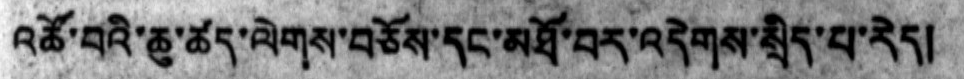འཚོ་བའི་ཆུ་ཚད་ལེགས་བཅོས་དང་མཐོ་བར་འདེགས་སྲིད་པ་རེད།
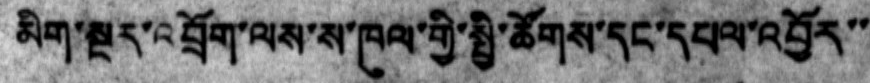མིག་སྔར་འབྲོག་ལས་ས་ཁུལ་གྱི་སྤྱི་ཚོགས་དང་དཔལ་འབྱོར་་
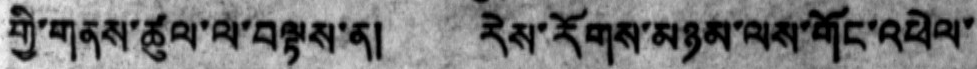གྱི་གནས་ཚུལ་ལ་བལྟས་ན།   རེས་རོགས་མཉམ་ལས་གོང་འཕེལ་
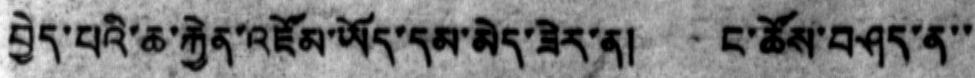བྱེད་པའི་ཆ་རྐྱེན་འཛོམ་ཡོད་དམ་མེད་ཟེར་ན། ང་ཚོས་བཤད་ན་་
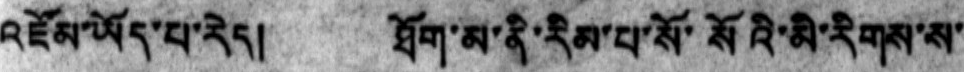འཛོམ་ཡོད་པ་རེད།   ཐོག་མ་ནི་རིམ་པ་སོ་སོའི་མི་རིགས་ས་
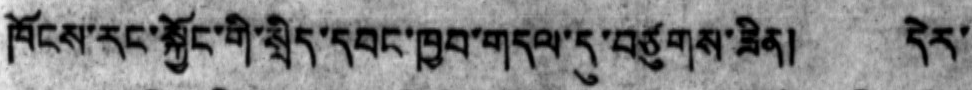ཁོངས་རང་སྐྱོང་གི་སྲིད་དབང་ཁྱབ་གདལ་དུ་བཙུགས་ཟིན།  དེར་
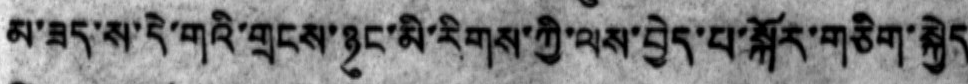མ་ཟད་ས་དེ་གའི་གྲངས་ཉུང་མི་རིགས་ཀྱི་ལས་བྱེད་པ་སྐོར་གཅིག་སྐྱེད
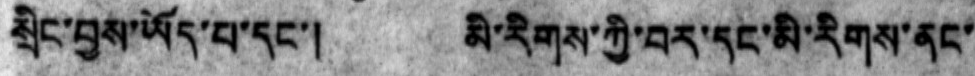སྲིང་བྱས་ཡོད་པ་དང་། མི་རིགས་ཀྱི་བར་དང་མི་རིགས་ནང་
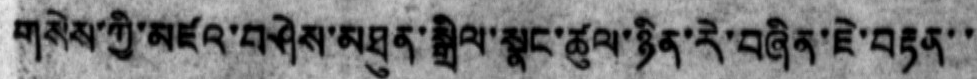གསེས་ཀྱི་མཛའ་བཤེས་མཐུན་སྒྲིལ་སྣང་ཚུལ་ཉིན་རེ་བཞིན་ཇེ་བརྟན་་
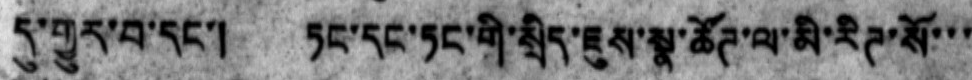དུ་གྱུར་བ་དང་། ཏང་དང་ཏང་གི་སྲིད་ཇུས་སྣ་ཚོཊ་ལ་མི་རིཊ་སོ་་་
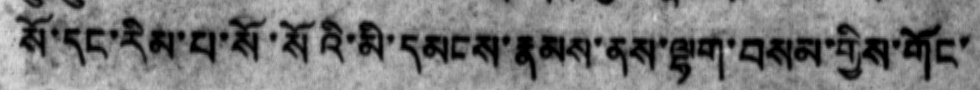སོ་དང་རིམ་པ་སོ་སོའི་མི་དམངས་རྣམས་ནས་ལྷག་བསམ་གྱིས་གོང་
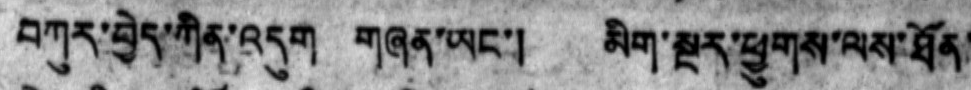བཀུར་བྱེད་ཀིན་འདུག གཞན་ཡང་། མིག་སྔར་ཕྱུགས་ལས་ཐོན་
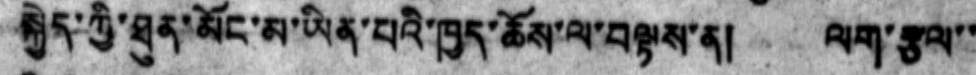སྐྱེད་ཀྱི་ཐུན་མོང་མ་ཡིན་པའི་ཁྱད་ཆོས་ལ་བསྟས་ན། ལག་རྩལ་་
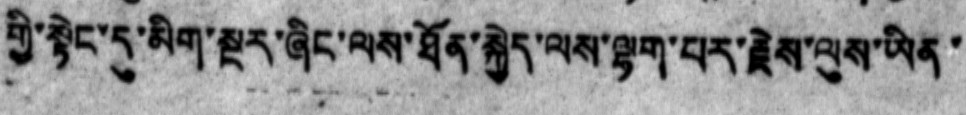གྱི་སྟེང་དུ་མིག་སྔར་ཞིང་ལས་ཐོན་སྐྱེད་ལས་ལྷག་པར་རྗེས་ལུས་ཡིན་
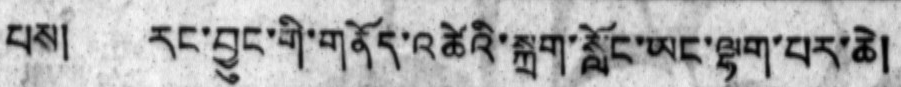པས།  རང་བྱུང་གི་གནོད་འཚེའི་སྐྲག་སློང་ཡང་ལྷག་པར་ཆེ།
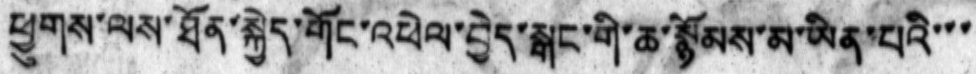ཕྱུགས་ལས་ཐོན་སྐྱེད་གོང་འཕེལ་བྱེད་སྒང་གི་ཆ་སྙོམས་མ་ཡིན་པའི་་་
